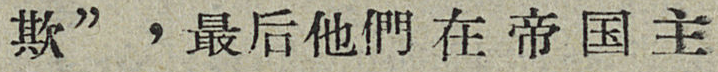欺”，最后他們在帝国主
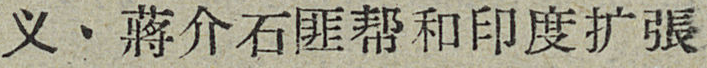义、蒋介石匪帮和印度扩張
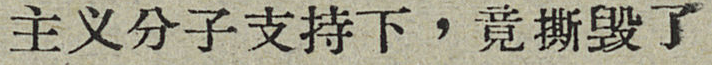主义分子支持下，竟撕毀了
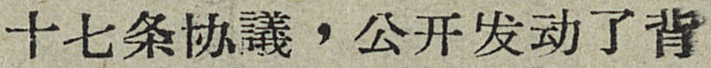十七条协議，公开发动了背
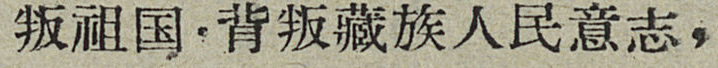叛祖国，背叛藏族人民意志，
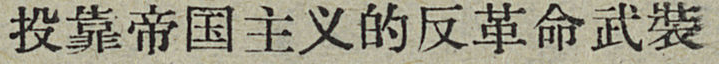投靠帝国主义的反革命武装
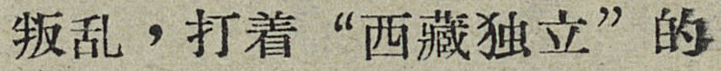叛乱，打着“西藏独立”的
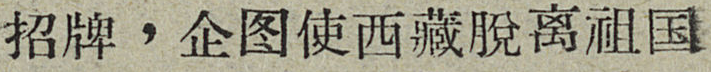招牌，企图使西藏脫离祖国
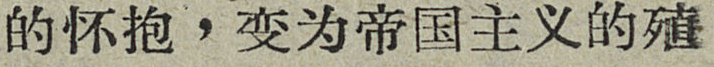的怀抱，变为帝国主义的殖
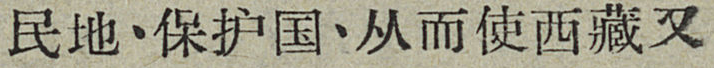民地、保护国、从而使西藏又
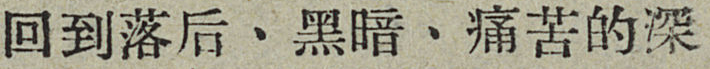回到落后、黑暗、痛苦的深
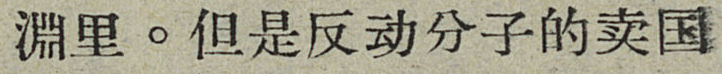淵里。但是反动分子的卖国
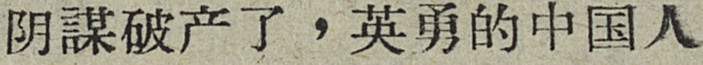阴謀破产了，英勇的中国人
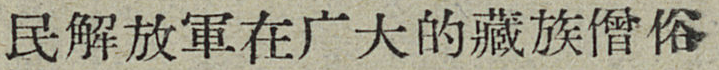民解放軍在广大的藏族僧俗
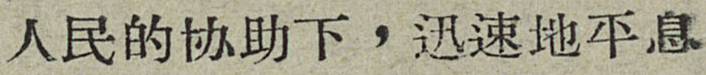人民的协助下，迅速地平息
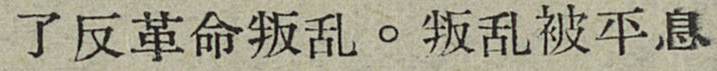了反革命叛乱。叛乱被平息
